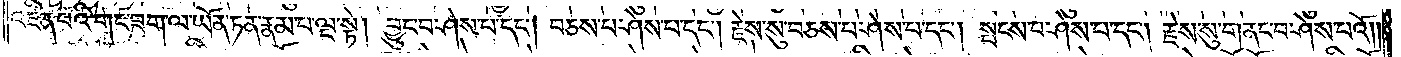འཛིན་པའི་གང་ཟག་ལ་ཡོན་ཏན་རྣམ་པ་ལྔ་སྟེ། བྱུང་བ་ཤེས་པ་དང༌། བཅས་པ་ཤེས་པ་དང༌། རྗེས་སུ་བཅས་པ་ཤེས་པ་དང༌། སྤངས་བ་ཤེས་པ་དང༌། རྗེས་སུ་གནང་བ་ཤེས་པའོ། །
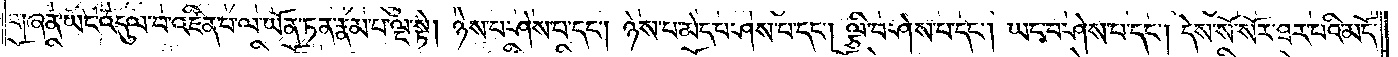གཞན་ཡང་འདུལ་བ་འཛིན་པ་ལ་ཡོན་ཏན་རྣམ་པ་ལྔ་སྟེ། ཉེས་པ་ཤེས་པ་དང༌། ཉེས་པ་མེད་པ་ཤེས་པ་དང༌། ལྕི་བ་ཤེས་པ་དང༌། ཡང་བ་ཤེས་པ་དང༌། དེས་སོ་སོར་ཐར་པའི་མདོ་
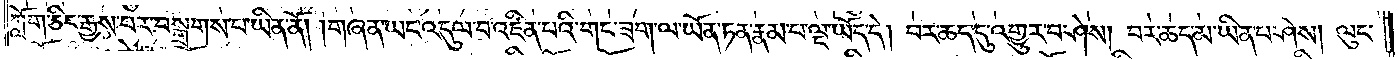ཀློག་ཅིང་རྒྱས་པར་བསྒྲགས་པ་ཡིན་ནོ། །གཞན་ཡང་འདུལ་བ་འཛིན་པའི་གང་ཟག་ལ་ཡོན་ཏན་རྣམ་པ་ལྔ་ཡོད་དེ། བར་ཆད་དུ་འགྱུར་བ་ཤེས། བར་ཆད་མ་ཡིན་པ་ཤེས། ལུང་
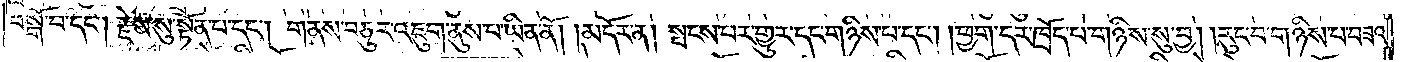བསྒོ་བ་དང༌། རྗེས་སུ་སྟོན་པ་དང༌། གནས་བཅུར་འཇུག་ནུས་པ་ཡིན་ནོ། །མདོར་ན། སྤངས་པར་གྱུར་དང་གཉིས་པ་དང༌། །ཕྱག་དར་ཁྲོད་པ་གཉིས་སུ་བྱ། །རུང་བ་གཉིས་པ་བཟའ་
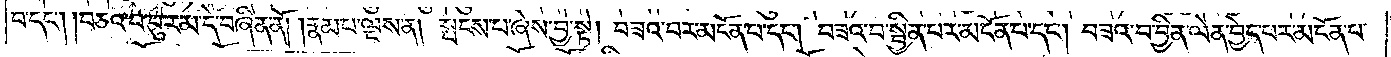བ་དང༌། །བཅའ་བ་བུ་རམ་དེ་བཞིན་ནོ། །རྣམ་པ་ལྔས་ན། སྤངས་པ་ཞེས་བྱ་སྟེ། བཟའ་བར་མངོན་པ་དང༌། བཟའ་བ་སྦྱིན་པར་མངོན་པ་དང༌། བཟའ་བ་བྱིན་ལེན་བྱེད་པར་མངོན་པ་
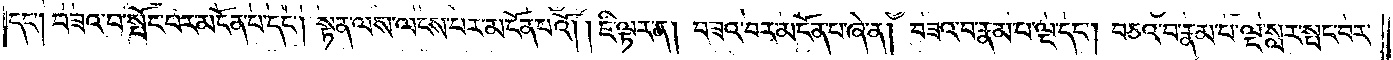དང༌། བཟའ་བ་སྤོང་བར་མངོན་པ་དང༌། སྟན་ལས་ལངས་པར་མངོན་པའོ། །ཇི་ལྟར་ན། བཟའ་བར་མངོན་པ་ཞེ་ན། བཟའ་བ་རྣམ་པ་ལྔ་དང༌། བཅའ་བ་རྣམ་པ་ལྔ་སླར་སྤང་བར་
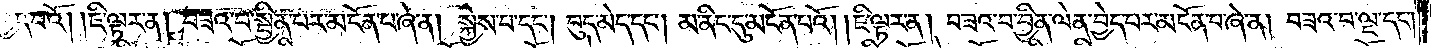བྱེད་པའོ། །ཇི་ལྟར་ན། བཟའ་བ་སྦྱིན་པར་མངོན་པ་ཞེ་ན། སྐྱེས་པ་དང༌། བུད་མེད་དང༌། མ་ནིང་དུ་མངོན་པའོ། །ཇི་ལྟར་ན། བཟའ་བ་བྱིན་ལེན་བྱེད་པར་མངོན་པ་ཞེ་ན། བཟའ་བ་ལྔ་དང༌།
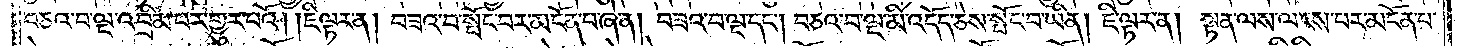བཅའ་བ་ལྔ་འབྲིམ་པར་གྱུར་པའོ། །ཇི་ལྟར་ན། བཟའ་བ་སྤོང་བར་མངོན་པ་ཞེ་ན། བཟའ་བ་ལྔ་དང༌། བཅའ་བ་ལྔ་མི་འདོད་ཅེས་སྤོང་བ་ཡིན། ཇི་ལྟར་ན། སྟན་ལས་ལངས་པར་མངོན་པ་
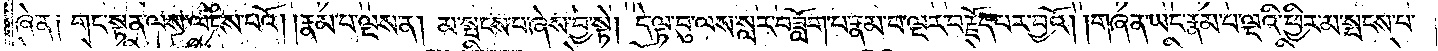ཞེ་ན༑ གང་སྟན་ལས་ལངས་པའོ། །རྣམ་པ་ལྔས་ན། མ་སྤངས་པ་ཞེས་བྱ་བ་སྟེ། དེ་ལྟ་བུ་ལས་སླར་བཟློག་པ་རྣམ་པ་ལྔར་བརྗོད་པར་བྱའོ། །གཞན་ཡང་རྣམ་པ་ལྔའི་ཕྱིར་མ་སྤངས་པ་
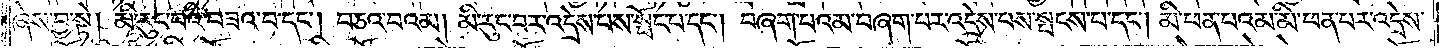ཞེས་བྱ་སྟེ། མི་རུང་བའི་བཟའ་བ་དང༌། བཅའ་བའམ། མི་རུང་བར་འདྲེས་པས་སྤོང་པ་དང༌། བཞག་པའམ་བཞག་པར་འདྲེས་པས་སྤངས་པ་དང༌། མི་ཕན་པའམ་མི་ཕན་པར་འདྲེས་
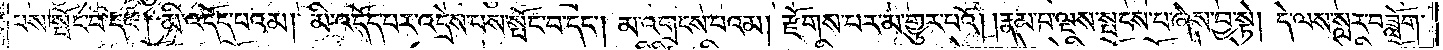པས་སྤོང་བ་དང༌། མི་འདོད་པའམ། མི་འདོད་པར་འདྲེས་པས་སྤོང་བ་དང༌། མ་འགྲངས་པའམ། རྫོགས་པར་མ་གྱུར་པའོ། །རྣམ་པ་ལྔས་སྤངས་པ་ཞེས་བྱ་སྟེ། དེ་ལས་སླར་བཟློག་
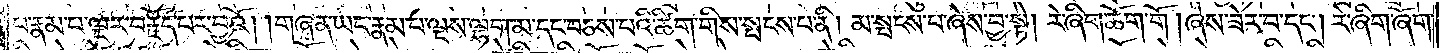པ་རྣམ་པ་ལྔར་བརྗོད་པར་བྱའོ། །གཞན་ཡང་རྣམ་པ་ལྔས་ལྷག་མ་དང་བཅས་པའི་ཚིག་གིས་སྤངས་པ་ནི། མ་སྤངས་པ་ཞེས་བྱ་སྟེ། རེ་ཞིག་ཆོག་གོ །ཞེས་ཟེར་བ་དང༌། རེ་ཞིག་ཞོག་
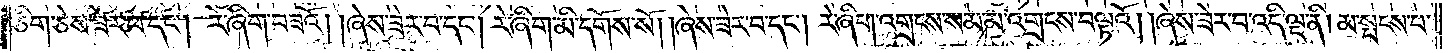ཅིག་ཅེས་ཟེར་བ་དང༌། རེ་ཞིག་བཟའོ། །ཞེས་ཟེར་བ་དང༌། རེ་ཞིག་མི་དགོས་སོ། །ཞེས་ཟེར་བ་དང༌། རེ་ཞིག་འགྲངས་སམ་མ་འགྲངས་བལྟའོ། །ཞེས་ཟེར་བ་འདི་ལྔ་ནི། མ་སྤངས་པ་
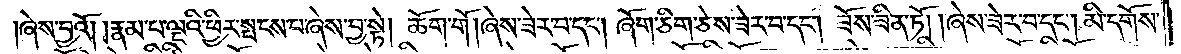ཞེས་བྱའོ། །རྣམ་པ་ལྔའི་ཕྱིར་སྤངས་པ་ཞེས་བྱ་སྟེ། ཆོག་གོ །ཞེས་ཟེར་བ་དང༌། ཞོག་ཅིག་ཅེས་ཟེར་བ་དང༌། ཟོས་ཟིན་ཏོ། །ཞེས་ཟེར་བ་དང༌། མི་དགོས་
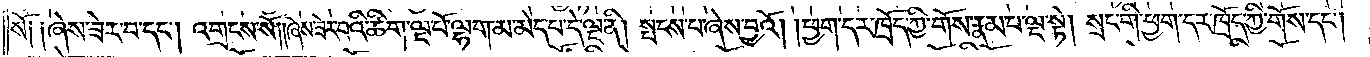སོ༑ ༑ཞེས་ཟེར་བ་དང༌། འགྲངས་སོ། །ཞེས་ཟེར་བའི་ཚིག་ལྔ་པོ་ལྷག་མ་མེད་པ་དེ་ལྔ་ནི། སྤངས་པ་ཞེས་བྱའོ། །ཕྱག་དར་ཁྲོད་ཀྱི་གོས་རྣམ་པ་ལྔ་སྟེ། སྲང་གི་ཕྱག་དར་ཁྲོད་ཀྱི་གོས་དང༌།
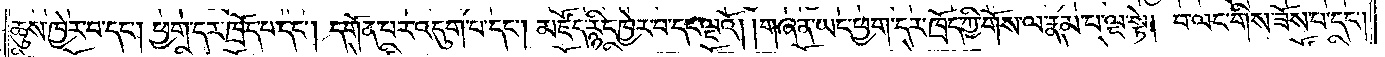ཆུས་ཁྱེར་བ་དང༌། ཕྱག་དར་ཁྲོད་པ་དང༌། དགོན་པར་འདུག་པ་དང༌། མཛོད་རྙིང་ཁྱེར་བ་དང་ལྔའོ། །གཞན་ཡང་ཕྱག་དར་ཁྲོད་ཀྱི་གོས་ལ་རྣམ་པ་ལྔ་སྟེ། བ་ལང་གིས་ཟོས་པ་དང༌།
